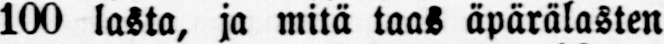100 lasta, ja mitä taas äpärälasten
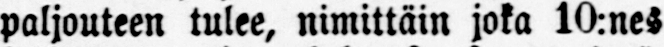paljouteen tulee, nimittäin joka 10:nes
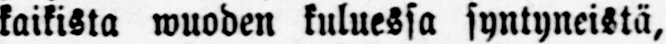kaikista wuoden kuluessa syntyneistä,
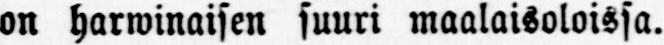on harwinaisen suuri maalaisoloissa.
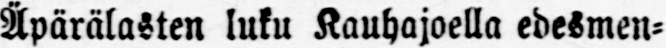Äpärälasten luku Kauhajoella edesmen-
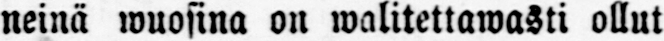neinä wuosina on walitettawasti ollut
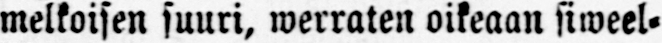melkoisen suuri, werraten oikeaan siweel-
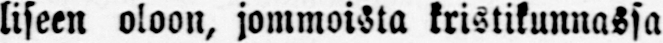liseen oloon, jommoista kristikunnassa
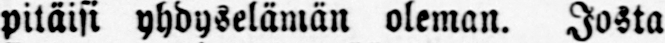pitäisi yhdyselämän oleman. Josta
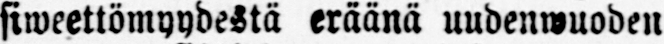siweettömyydestä eräänä uudenwuoden
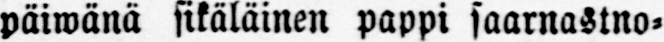päiwänä sikäläinen pappi saarnastno-
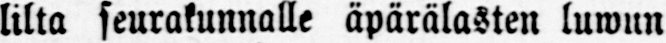lilta seurakunnalle äpärälasten luwun
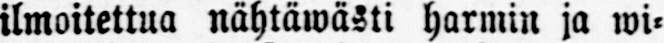ilmoitettua nähtäwästi harmin ja wi-
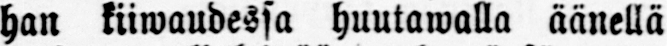han kiiwaudessa huutawalla äänellä
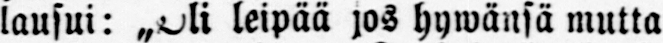lausui: „Oli leipää jos hywänsä mutta
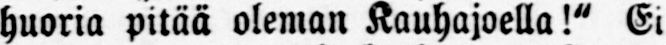huoria pitää oleman Kauhajoella!" Ei
